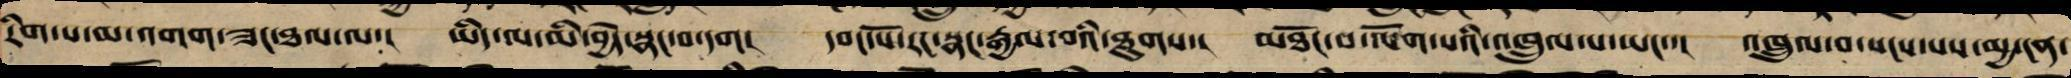རིག་པ་མ་འགགས་ཟང་ཐལ་ལ་། ཡིད་ལ་མི་བྱེད་སྣང་བ་དག། དབང་པོ་རང་སྣང་རྒྱལ་བའི་ཐུགས་། མཐོང་བ་ལོག་པའི་འཁྲུལ་པ་ཡང་་། འཁྲུལ་པ་སངས་པས་མྱ་ངན་
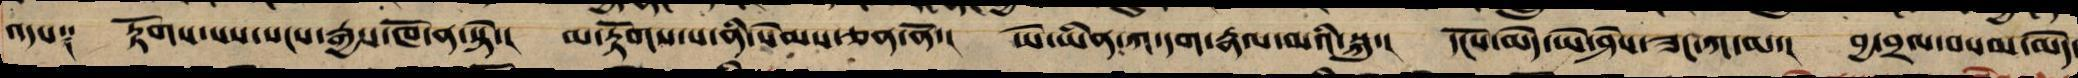འདས༑ རྟོགས་པས་སངས་རྒྱས་ཁོ་ན་སྟེ་། མ་རྟོགས་པ་ནི་སེམས་ཅན་ནོ་། ཡེ་ཡིན་ཀ་དག་རྣལ་མའི་སྐུ་། དངོས་མེད་ཡེ་ཤེས་ཟང་ཀ་མ་། བྱ་བྲལ་བསམ་མེད་
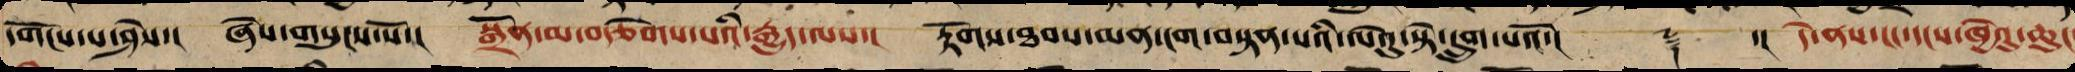དགོངས་པ་ཤེས་། ཞེས་གསུངས་སོ་། སྒྲོན་མ་བརྩེགས་པའི་རྒྱུད་ལས་། རྟོགས་ཐབས་མན་ངག་བསྟན་པའི་ལེའུ་སྟེ་དྲུག་པའོ་།། ༈ ་།། དེ་ནས་ངང་དངས་ཁྱེའུ་ཆུང
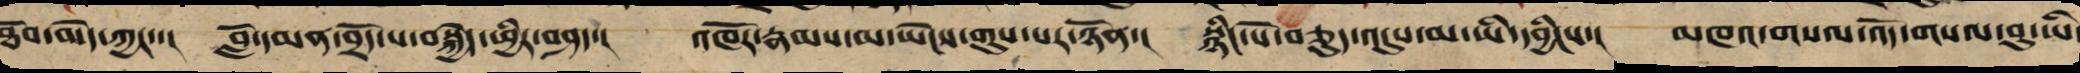ཐོབ་མེད་ཀྱང་་། བློ་དམན་བྲོད་པ་བསྐྱེད་ཕྱིར་བཤད་། འཁོར་རྣམས་མ་ཡེངས་གུས་པར་ཉོན་། སྙིང་པོ་བཅུད་འདུས་མ་ཡི་དབྱིངས་། མཁའ་གསལ་འོད་གསལ་བུ་ཡི་
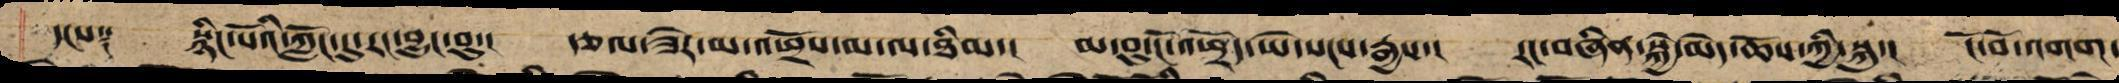དངས༑ སྙིང་པོའི་ཀློང་དུ་རང་བྱུང་བུ་། རྩལ་ཟེར་མ་འཕྲོས་མ་ལ་ཐིམ་། མ་བུ་ངོ་འཕྲོད་ཡེ་སངས་རྒྱས་། རང་བཞིན་སྐྱེ་མེད་ཆོས་ཀྱི་སྐུ་། ངོ་བོ་འགག་
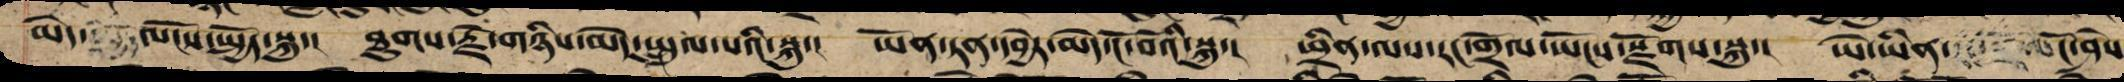མེད་ལོངས་སྤྱོད་སྐུ་། ཐུགས་རྗེ་གཉིས་མེད་སྤྲུལ་པའི་སྐུ་། ཡོན་ཏན་དབྱེར་མེད་ངོ་བོའི་སྐུ་། ཕྲིན་ལས་རང་གྲོལ་ཡོངས་སྫོགས་སྐུ་། ཡེ་ཡིན་ངོ་ཤེས
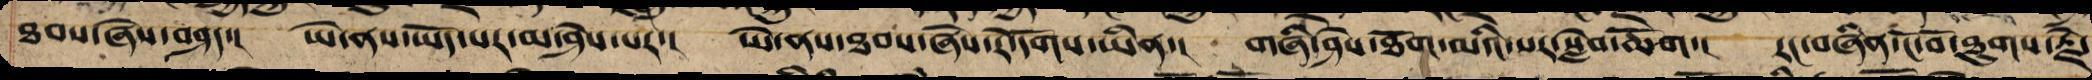ཐོབ་ཅེས་བཤད་། ཡེ་ནས་ཡོད་པར་མ་ཤེས་པར་། ཡེ་ནས་ཐོབ་ཞེས་རེ་དོགས་ཡིན་། གཞི་ཤེས་ཐོག་མའི་སར་སླེབ་ཆོག་། རང་བཞིན་ངོ་བོ་ཐུགས་རྗེ་
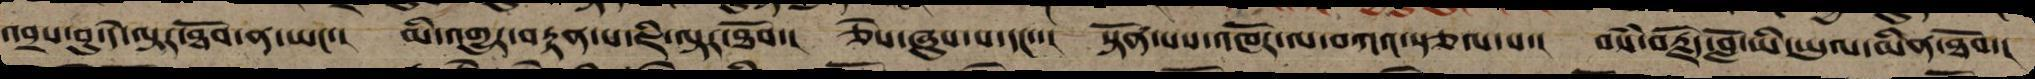འབྲས་བུ་དེ་ལྟར་ཐོབ་ན་ཡང་། མི་འགྱུར་བརྟན་པ་ཇི་ལྟར་ཐོབ་། ཅེས་ཞུས་པ་དང་་། སྟོན་པས་འཁོར་ལ་བཀའ་སྩལ་པ་། བསམ་བརྗོད་བློ་ཡི་ཡུལ་མིན་ཐོབ་།
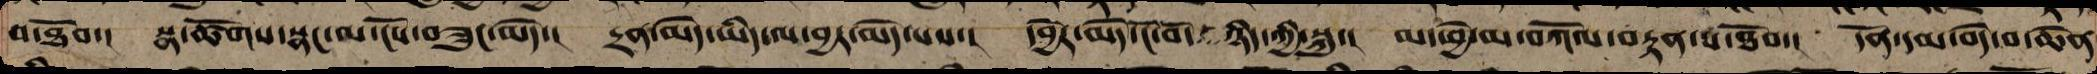པ་ཐོབ་། སྣ་ཚོགས་སྣང་ལ་ངོས་བཟུང་མེད་། དྲན་མེད་ཡིད་ལ་བྱར་མེད་པས་། དབྱེར་མེད་ངོ་བོ་ཉིད་ཀྱི་སྐུ་། མ་ཕྱེ་མ་བཀོལ་བརྟན་པ་ཐོབ་། དོན་དམ་བདེ་བ་ཆེན
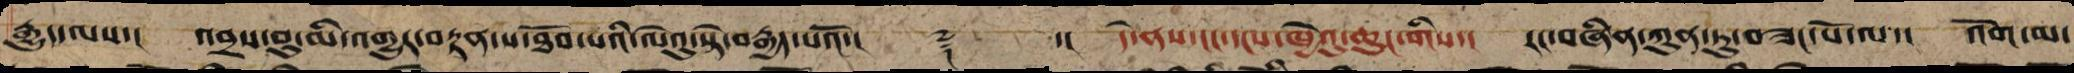རྒྱུད་ལས་། འབྲས་བུ་མི་འགྱུར་བརྟན་པ་ཐོབ་པའི་ལེའུ་སྟེ་བརྒྱད་པའོ་།། ༈ ་།། དེ་ནས་ངང་དངས་ཁྱེའུ་ཆུང་གིས་། རང་བཞིན་ཀུན་ཏུ་བཟང་པོ་ལ་། འོག་མ་
